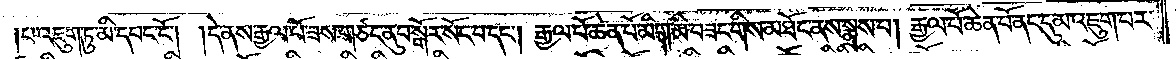པ་འཇུག་ཏུ་མི་དབང་ངོ༌། །དེ་ནས་རྒྱལ་པོ་ཟས་གཙང་ནུབ་སྒོར་སོང་བ་དང༌། །རྒྱལ་པོ་ཆེན་པོ་མིག་མི་བཟང་གིས་མཐོང་ནས་སྨྲས་པ། །རྒྱལ་པོ་ཆེན་པོ་ནང་དུ་མ་འཇུག་པར་
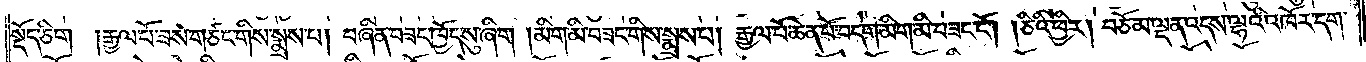སྡོད་ཅིག །རྒྱལ་པོ་ཟས་གཙང་གིས་སྨྲས་པ། །བཞིན་བཟང་ཁྱོད་སུ་ཞིག། །མིག་མི་བཟང་གིས་སྨྲས་པ། །རྒྱལ་པོ་ཆེན་པོ་བདག་མིག་མི་བཟང་ངོ༌། ཅིའི་ཕྱིར། །བཅོམ་ལྡན་འདས་ལྷའི་འཁོར་དག་
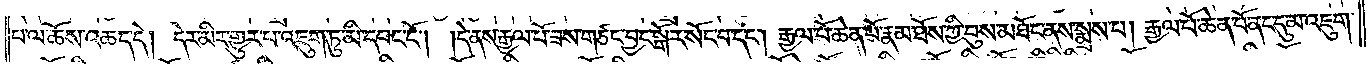པ་ལ་ཆོས་འཆད་དེ། །དེར་མི་འགྱུར་པ་འཇུག་ཏུ་མི་དབང་ངོ༌། །དེ་ནས་རྒྱལ་པོ་ཟས་གཙང་བྱང་སྒོར་སོང་བ་དང༌། རྒྱལ་པོ་ཆེན་པོ་རྣམ་ཐོས་ཀྱི་བུས་མཐོང་ནས་སྨྲས་པ། རྒྱལ་པོ་ཆེན་པོ་ནང་དུ་མ་འཇུག་
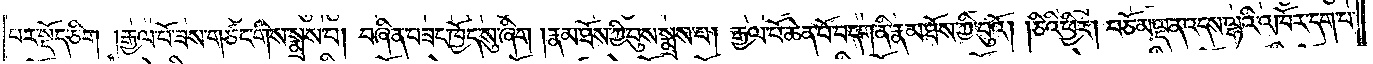པར་སྡོད་ཅིག །རྒྱལ་པོ་ཟས་གཙང་གིས་སྨྲས་པ། བཞིན་བཟང་ཁྱོད་སུ་ཞིག། རྣམ་ཐོས་ཀྱི་བུས་སྨྲས་པ། རྒྱལ་པོ་ཆེན་པོ་བདག་ནི་རྣམ་ཐོས་ཀྱི་བུའོ། །ཅིའི་ཕྱིར། །བཅོམ་ལྡན་འདས་ལྷའི་འཁོར་དག་པ་
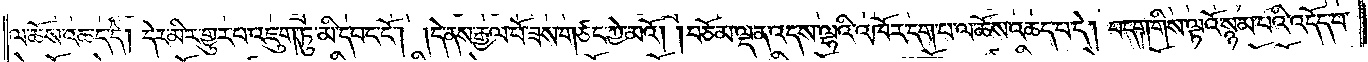ལ་ཆོས་འཆད་དེ། དེར་མི་གྱུར་པ་འཇུག་ཏུ་མི་དབང་ངོ༌། དེ་ནས་རྒྱལ་པོ་ཟས་གཙང་ཀྱེ་མའོ། །བཅོམ་ལྡན་འདས་ལྷའི་འཁོར་དག་པ་ལ་ཆོས་འཆད་པ་དེ། བདག་གིས་ལྷའོ་སྙམ་པའི་འདོད་པ་
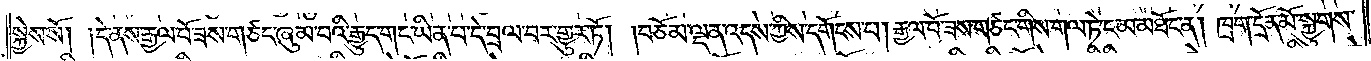སྐྱེས་སོ། །དེ་ནས་རྒྱལ་པོ་ཟས་གཙང་ཞུམ་པའི་རྒྱུད་པ་གང་ཡིན་པ་དེ་བྲལ་བར་གྱུར་ཏོ། །བཅོམ་ལྡན་འདས་ཀྱིས་དགོངས་པ། རྒྱལ་པོ་ཟས་གཙང་གིས་གལ་ཏེ་ང་མ་མཐོང་ན། །ཁྲག་དྲོན་མོ་སྐྱུགས་
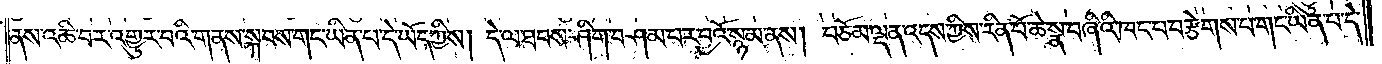ནས་འཆི་བར་འགྱུར་པའི་གནས་སྐབས་གང་ཡིན་པ་དེ་ཡོད་ཀྱིས། །དེ་ལ་ཐབས་ཤིག་བཤམ་པར་བྱའོ་སྙམ་ནས། བཅོམ་ལྡན་འདས་ཀྱིས་རིན་པོ་ཆེ་སྣ་བཞིའི་ཁང་པ་བརྩེགས་པ་གང་ཡིན་པ་དེ་
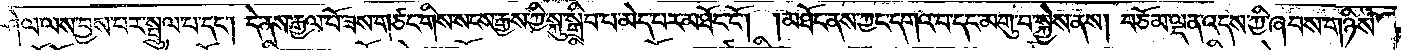ཤེལ་ལས་བྱས་པར་སྤྲུལ་པ་དང༌། །དེ་ནས་རྒྱལ་པོ་ཟས་གཙང་གིས་སངས་རྒྱས་ཀྱི་སྐུ་སྒྲིབ་པ་མེད་པར་མཐོང་ངོ༌། །མཐོང་ནས་ཀྱང་དགའ་བ་དང་མགུ་བ་སྐྱེས་ནས། །བཅོམ་ལྡན་འདས་ཀྱི་ཞབས་གཉིས་
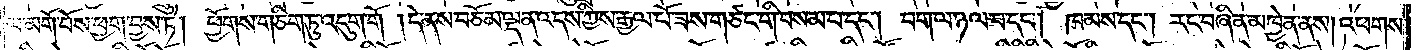ལ་མགོ་བོས་ཕྱག་བྱས་ཏེ། ཕྱོགས་གཅིག་ཏུ་འདུག་གོ །དེ་ནས་བཅོམ་ལྡན་འདས་ཀྱིས་རྒྱལ་པོ་ཟས་གཙང་གི་བསམ་པ་དང༌། བག་ལ་ཉལ་བ་དང༌། ཁམས་དང༌། རང་བཞིན་མཁྱེན་ནས། འཕགས་
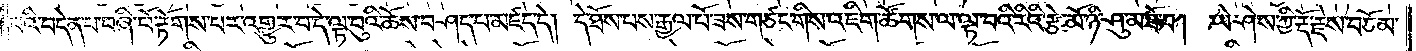པའི་བདེན་པ་བཞི་པོ་རྟོགས་པར་འགྱུར་བ་དེ་ལྟ་བུའི་ཆོས་བཤད་པ་མཛད་དེ། དེ་ཐོས་པས་རྒྱལ་པོ་ཟས་གཙང་གིས་འཇིག་ཚོགས་ལ་ལྟ་བའི་རིའི་རྩེ་མོ་ཉི་ཤུ་མཐོ་བ། །ཡེ་ཤེས་ཀྱི་རྡོ་རྗེས་བཅོམ་
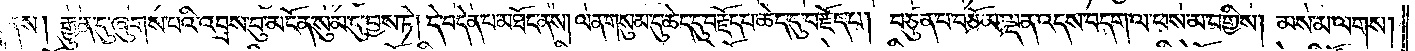ནས། རྒྱུན་དུ་ཞུགས་པའི་འབྲས་བུ་མངོན་སུམ་དུ་བྱས་ཏེ། དེ་བདེན་པ་མཐོང་ནས། །ལན་གསུམ་དུ་ཆེད་དུ་བརྗོད་པ་ཆེད་དུ་བརྗོད་པ། །བཙུན་པ་བཅོམ་ལྡན་འདས་བདག་ལ་ཕས་མ་བགྱིས། །མས་མ་ལགས།
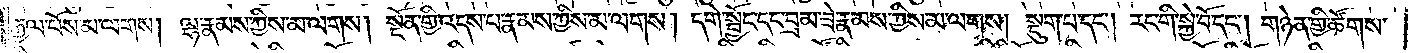རྒྱལ་པོས་མ་ལགས། །ལྷ་རྣམས་ཀྱིས་མ་ལགས། །སྔོན་གྱི་འདས་པ་རྣམས་ཀྱིས་མ་ལགས། །དགེ་སྦྱོང་དང་བྲམ་ཟེ་རྣམས་ཀྱིས་མ་ལགས། །སྡུག་པ་དང༌། །རང་གི་སྐྱེ་བོ་དང༌། །གཉེན་གྱི་ཚོགས་
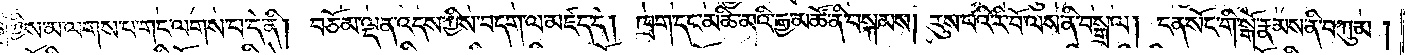ཀྱིས་མ་ལགས་པ་གང་ལགས་པ་དེ་ནི། །བཅོམ་ལྡན་འདས་ཀྱིས་བདག་ལ་མཛད་དེ། ཁྲག་དང་མཆི་མའི་རྒྱ་མཚོ་ནི་བསྐམས། །རུས་པའི་རི་བོ་ལས་ནི་བསྒྲལ། །ངན་སོང་གི་སྒོ་རྣམས་ནི་བཀུམ།
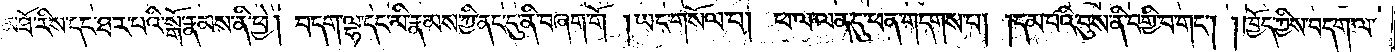མཐོ་རིས་དང་ཐར་པའི་སྒོ་རྣམས་ནི་ཕྱེ། །བདག་ལྷ་དང་མི་རྣམས་ཀྱི་ནང་དུ་བཞག་གོ །ཡང་གསོལ་བ། །ཕ་ལ་ལན་དུ་ཕན་གདགས་པ། །དམ་པའི་བུས་ནི་བགྱི་བ་གང༌། །ཁྱོད་ཀྱིས་བདག་ལ་
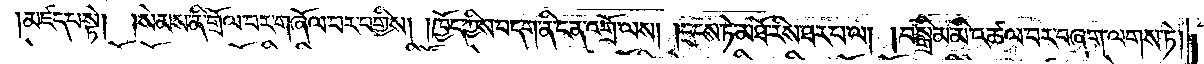།མཛད་པ་སྟེ། །སེམས་ནི་གྲོལ་བར་གཞོལ་བར་བགྱིས། །ཁྱོད་ཀྱིས་བདག་ནི་ངན་འགྲོ་ལས། །དྲངས་ཏེ་མཐོ་རིས་ཐར་པ་ལ། །བསྒྲིམ་མི་འཚལ་བར་བཞག་ལགས་ཏེ།
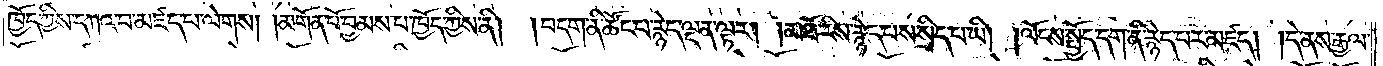ཁྱོད་ཀྱིས་དཀའ་བ་མཛད་པ་ལེགས། །མགོན་པོ་བྱམས་པ་ཁྱོད་ཀྱིས་ནི། །བདག་ནི་ཚོང་པ་རྙེད་ལྡན་ལྟར། །མཐོ་རིས་རྙེད་པས་སྲིད་པ་ཡི། །ལོངས་སྤྱོད་དག་ནི་རྙེད་པར་མཛད། །དེ་ནས་རྒྱལ་
